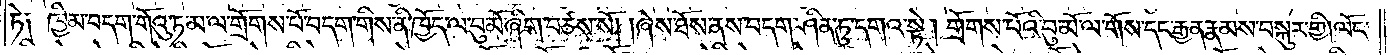ཏེ༑ ཁྱིམ་བདག་གོའུ་ཏ་མ་ལ་གྲོགས་པོ་བདག་གིས་ནི་ཁྱོད་ལ་བུ་མོ་ཞིག་བཙས་སོ། །ཞེས་ཐོས་ནས་བདག་ཤིན་ཏུ་དགའ་སྟེ། གྲོགས་པོའི་བུ་མོ་ལ་གོས་དང་རྒྱན་རྣམས་བསྐུར་གྱི། ལོང་
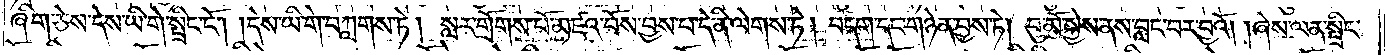ཞིག་ཅེས་དེས་ཡི་གེ་སྤྲིང་ངོ༌། །དེས་ཡི་གེ་བཀླགས་ཏེ། སླར་གྲོགས་པོ་མཛའ་བོས་བྱས་པ་དེ་ནི་ལེགས་ཏེ། བདག་དང་གཉེན་བྱས་ཏེ། བུ་མོ་སྐྱེས་ནས་བླང་བར་བྱའོ། །ཞེས་ལན་སྤྲིང་
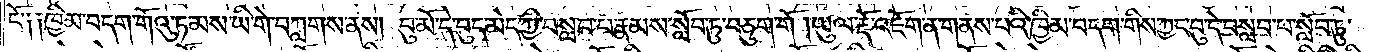ངོ༑ ༑ཁྱིམ་བདག་གོའུ་ཏ་མས་ཡི་གེ་བཀླགས་ནས། བུ་མོ་དེ་བུད་མེད་ཀྱི་བསླབ་པ་རྣམས་སློབ་ཏུ་བཅུག་གོ །ཡུལ་རྡོ་འཇོག་ན་གནས་པའི་ཁྱིམ་བདག་གིས་ཀྱང་བུ་དེ་བསླབ་པ་སློབ་ཏུ་
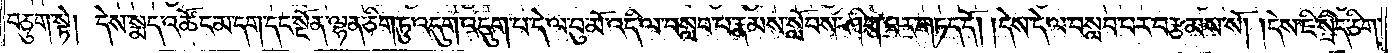བཅུག་སྟེ། དེས་སྨད་འཚོང་མ་དག་དང་སྔོན་ལྷན་ཅིག་ཏུ་འདུག་འདུག་པ་དེ་ལ་བུ་མོ་འདི་ལ་བསླབ་པ་རྣམས་སློབས་ཤིག་པར་གཏད་དོ། །དེས་དེ་ལ་བསླབ་པར་བརྩམས་སོ། །དེས་ཇི་སྲིད་ཅིག་
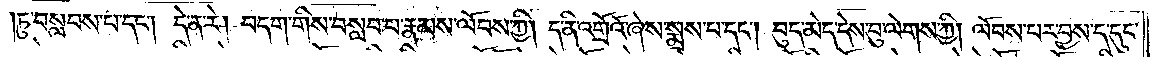ཏུ་བསླབས་པ་དང༌། དེ་ན་རེ། བདག་གིས་བསླབ་པ་རྣམས་ལོབས་ཀྱི། ད་ནི་འགྲོའོ་ཞེས་སྨྲས་པ་དང༌། བུད་མེད་དེས་བུ་ལེགས་ཀྱི། ལོབས་པར་བྱས་ད་དུང་
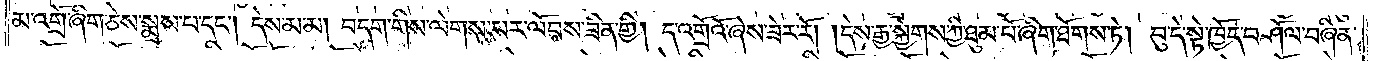མ་འགྲོ་ཞིག་ཅེས་སྨྲས་པ་དང༌། དེས་མ་མ། བདག་གིས་ལེགས་པར་ལོབས་ཟིན་གྱི། ད་འགྲོའོ་ཞེས་ཟེར་རོ། །དེས་རྒྱ་སྐྱེགས་ཀྱི་ཐུམ་པོ་ཞིག་ཐོགས་ཏེ། བུ་དེ་སྟེ་ཁྱོད་བཤོལ་བཞིན་
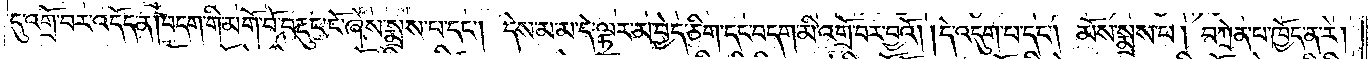དུ་འགྲོ་བར་འདོད་ན། བདག་གི་མགོ་བོ་བརྡུང་ངོ་ཞེས་སྨྲས་པ་དང༌། དེས་མ་མ་དེ་ལྟར་མ་བྱེད་ཅིག་དང་བདག་མི་འགྲོ་བར་བྱའོ། །དེ་འདུག་པ་དང༌། མོས་སྨྲས་པ། བཀྲེན་པ་ཁྱོད་ན་རེ།
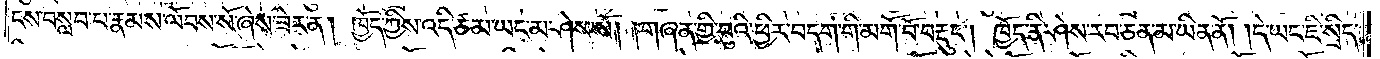ངས་བསླབ་པ་རྣམས་ལོབས་སོ་ཞེས་ཟེར་ན། ཁྱོད་ཀྱིས་འདི་ཙམ་ཡང་མ་ཤེས་སོ། །གཞན་གྱི་བུའི་ཕྱིར་བདག་གི་མགོ་བོ་བརྡུང༌། ཁྱོད་ནི་ཤེས་རབ་ཅན་མ་ཡིན་ནོ། །དེ་ཡང་ཇི་སྲིད་
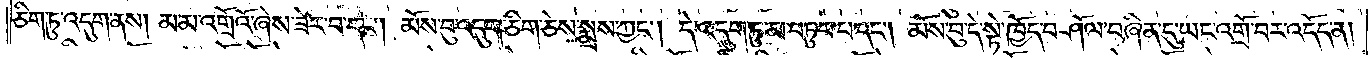ཅིག་ཏུ་འདུག་ནས། མ་མ་འགྲོའོ་ཞེས་ཟེར་བ་དང༌། མོས་བུ་འདུག་ཅིག་ཅེས་སྨྲས་ཀྱང༌། དེ་འདུག་ཏུ་མ་བཏུབ་པ་དང༌། མོས་བུ་དེ་སྟེ་ཁྱོད་བཤོལ་བཞིན་དུ་ཡང་འགྲོ་བར་འདོད་ན།
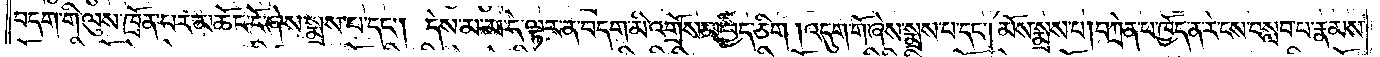བདག་གི་ལུས་ཁྲོན་པར་མཆོང་ངོ་ཞེས་སྨྲས་པ་དང༌། དེས་མ་མ་དེ་ལྟར་ན་བདག་མི་འགྲོས་མ་བྱེད་ཅིག །འདུག་གོ་ཞེས་སྨྲས་པ་དང༌། མོས་སྨྲས་པ་དང༌། བཀྲེན་པ་ཁྱོད་ན་རེ་ངས་བསླབ་པ་རྣམས་
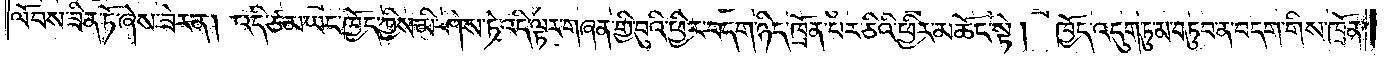ལོབས་ཟིན་ཏོ་ཞེས་ཟེར་ན། འདི་ཙམ་ཡང་ཁྱོད་ཀྱིས་མི་ཤེས་ཏེ་འདི་ལྟར་གཞན་གྱི་བུའི་ཕྱིར་བདག་ཉིད་ཁྲོན་པར་ཅིའི་ཕྱིར་མཆོང་སྟེ། ཁྱོད་འདུག་ཏུ་མ་བཏུབ་ན་བདག་གིས་ཁྲོན་
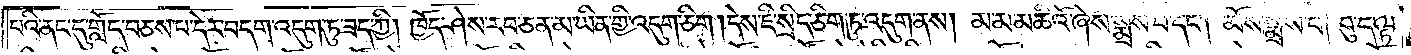པའི་ནང་དུ་གློད་བཅས་པ་དེར་བདག་འདུག་ཏུ་ཟད་ཀྱི། ཁྱོད་ཤེས་རབ་ཅན་མ་ཡིན་གྱི་འདུག་ཅིག །དེས་ཇི་སྲིད་ཅིག་ཏུ་འདུག་ནས། མ་མ་མཆིའོ་ཞེས་སྨྲས་པ་དང༌། མོས་སྨྲས་པ། བུ་དེ་སྟེ་
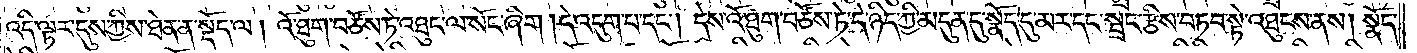འདི་ལྟར་དུས་ཀྱིས་ཐེན་ན་སྡོད་ལ། འོ་ཐུག་བཙོས་ཏེ་འཐུང་ལ་སོང་ཞིག །དེ་འདུག་པ་དང༌། དེས་འོ་ཐུག་བཙོས་ཏེ་དེ་ཉིད་ཀྱི་མདུན་དུ་སྣོད་དུ་མར་དང་སྦྲང་རྩིས་བཏབ་སྟེ་འཐུངས་ནས། སྣོད་
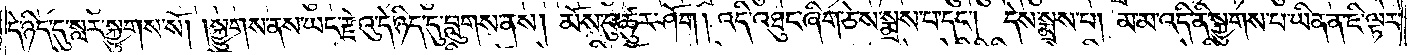དེ་ཉིད་དུ་སླར་སྐྱུགས་སོ། །སྐྱུགས་ནས་ཡང་རྗེའུ་དེ་ཉིད་དུ་བླུགས་ནས། མོས་བུ་ཚུར་ཤོག །འདི་འཐུང་ཞིག་ཅེས་སྨྲས་པ་དང༌། དེས་སྨྲས་པ། མ་མ་འདི་ནི་སྐྱུགས་པ་ཡིན་ན་ཇི་ལྟར་
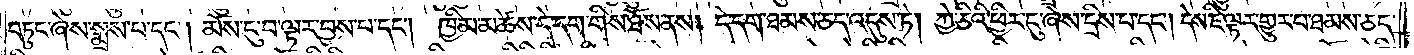བཏུང་ཞེས་སྨྲས་པ་དང༌། མོས་ངུ་བ་ལྟར་བྱས་པ་དང༌། ཁྱིམ་མཚེས་དེ་དག་གིས་ཐོས་ནས། དེ་དག་ཐམས་ཅད་འདུས་ཏེ། ཀྱེ་ཅིའི་ཕྱིར་དུ་ཞེས་དྲིས་པ་དང༌། དེས་ཇི་ལྟར་གྱུར་པ་ཐམས་ཅད་
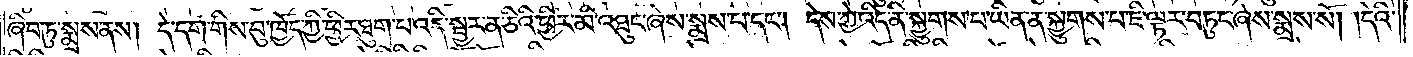ཞིབ་ཏུ་སྨྲས་ནས། དེ་དག་གིས་བུ་ཁྱོད་ཀྱི་ཕྱིར་ཐུག་པ་འདི་སྦྱར་ན་ཅིའི་ཕྱིར་མི་འཐུང་ཞེས་སྨྲས་པ་དང༌། དེས་ཀྱེ་འདི་ནི་སྐྱུགས་པ་ཡིན་ན་སྐྱུགས་པ་ཇི་ལྟར་བཏུང་ཞེས་སྨྲས་སོ། །དེའི་
